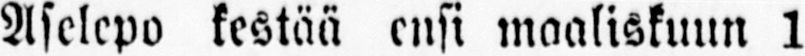Aselepo kestää ensi maaliskuun 1
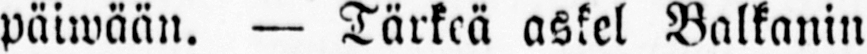päiwään. — Tärkeä askel Balkanin
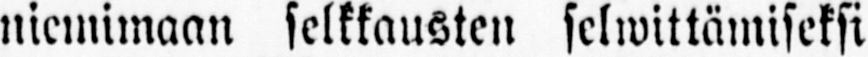niemimaan selkkausten selwittämiseksi
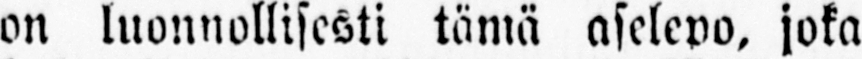on luonnollisesti tämä aselepo, joka
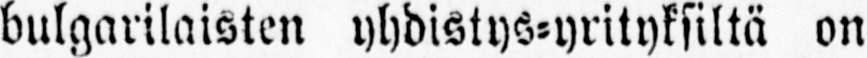bulgarilaisten yhdistys-yrityksiltä on
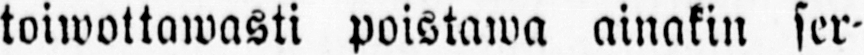toiwottowasti poistawa ainakin ser-
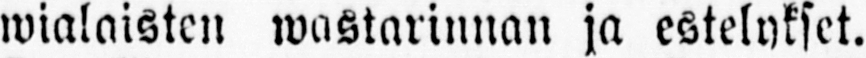wialaisten wastarinnan ja estelykset.
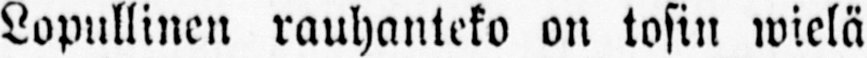Lopullinen rauhanteko on tosin wielä
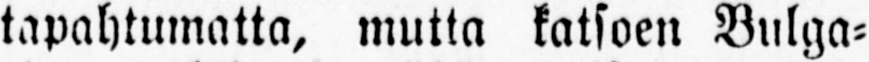tapahtumatta, mutta katsoen Bulga-
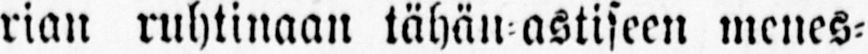rian ruhtinaan tähän-astiseen menes-
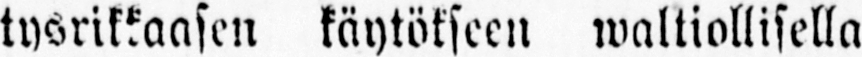tysrikkaasen käytökseen waltiollisella
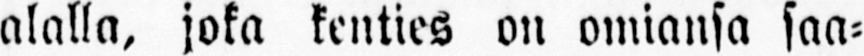alalla, joka kenties on omiansa saa-
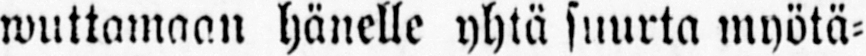wuttamaan hänelle yhtä suurta myötä-
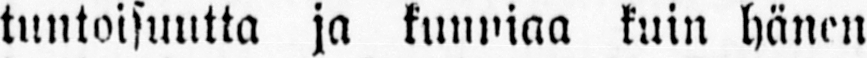tuntoisuutta ja kunniaa kuin hänen
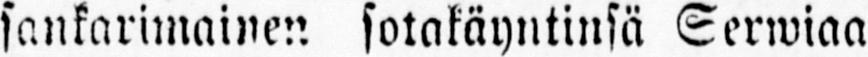sankarimainen sotakäyntinsä Serwiaa
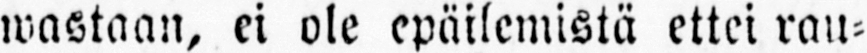wastaan, ei ole epäilemistä ettei rau-
